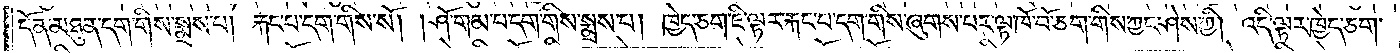དོན་མཐུན་དག་གིས་སྨྲས་པ། རྐང་པ་དག་གིས་སོ། །ཤོ་གམ་པ་དག་གིས་སྨྲས་པ། ཁྱེད་ཅག་ཇི་ལྟར་རྐང་པ་དག་གིས་ཞུགས་པར་ལྟ་ཁོ་བོ་ཅག་གིས་ཀྱང་ཤེས་ཀྱི། འདི་ལྟར་ཁྱེད་ཅག་
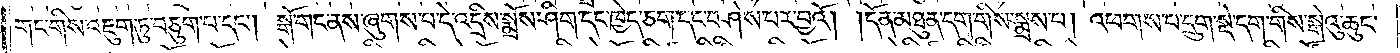གང་གིས་འཇུག་ཏུ་བཅུག་པ་དང༌། སྒོ་གང་ནས་ཞུགས་པ་དེ་འདྲིས་སྨྲོས་ཤིག་དང་ཁྱེད་ཅག་དང་བཤེས་པར་བྱའོ། །དོན་མཐུན་དག་གིས་སྨྲས་པ། འཕགས་པ་དྲུག་སྡེ་དག་གིས་སྒེའུ་ཆུང་
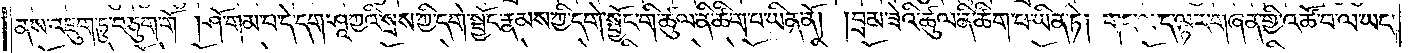ནས་འཇུག་ཏུ་བཅུག་གོ །ཤོ་གམ་པ་དེ་དག་ཤཱཀྱའི་སྲས་ཀྱི་དགེ་སྦྱོང་རྣམས་ཀྱི་དགེ་སྦྱོང་གི་ཚུལ་ནི་ཚིག་པ་ཡིན་ནོ། །བྲམ་ཟེའི་ཚུལ་ནི་ཚིག་པ་ཡིན་ཏེ། གང་ལ་ད་ལྟར་གཞན་གྱི་འཚོ་བ་ལ་ཡང་
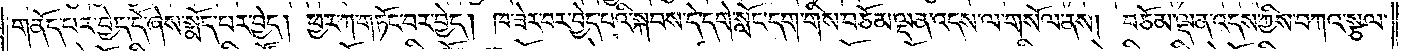གནོད་པར་བྱེད་དོ་ཞེས་སྨོད་པར་བྱེད། ཕྱར་ཀ་གཏོང་བར་བྱེད། ཁ་ཟེར་བར་བྱེད་པའི་སྐབས་དེ་དགེ་སློང་དག་གིས་བཅོམ་ལྡན་འདས་ལ་གསོལ་ནས། བཅོམ་ལྡན་འདས་ཀྱིས་བཀའ་སྩལ་
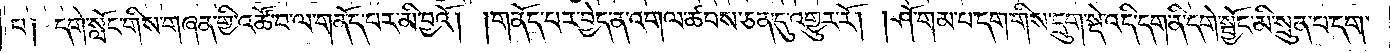པ༑ དགེ་སློང་གིས་གཞན་གྱི་འཚོ་བ་ལ་གནོད་པར་མི་བྱའོ། །གནོད་པར་བྱེད་ན་འགལ་ཚབས་ཅན་དུ་འགྱུར་རོ། །ཤོ་གམ་པ་དག་གིས་དྲུག་སྡེ་འདི་དག་ནི་དགེ་སྦྱོང་མི་སྲུན་པ་དག་
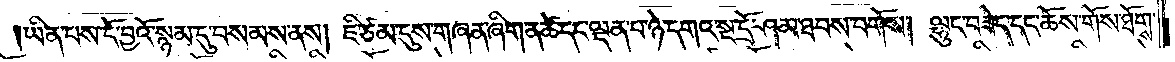།ཡིན་པས་དོ་བྱའོ་སྙམ་དུ་བསམས་ནས། ཇི་ཙམ་དུས་གཞན་ཞིག་ན་ཚེ་དང་ལྡན་པ་ཉེ་དགའ་སྔ་དྲོ་ཤམ་ཐབས་བགོས། ལྷུང་བཟེད་དང་ཆོས་གོས་ཐོགས་
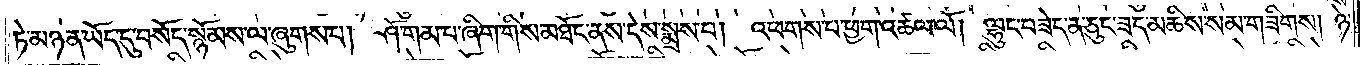ཏེ་མཉན་ཡོད་དུ་བསོད་སྙོམས་ལ་ཞུགས་པ། ཤོ་གམ་པ་ཞིག་གིས་མཐོང་ནས་དེས་སྨྲས་པ། འཕགས་པ་ཕྱག་འཚལ་ལོ། ལྷུང་བཟེད་ན་ཅུང་ཟད་མཆིས་སམ་གཟིགས། ཉེ་
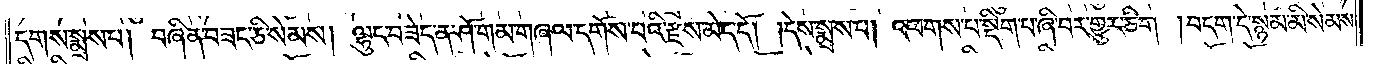དགས་སྨྲས་པ། བཞིན་བཟང་ཅི་སེམས། ལྷུང་བཟེད་ན་ཤོ་གམ་གཞལ་དགོས་པའི་རྫས་མེད་དོ། །དེས་སྨྲས་པ། འཕགས་པ་སྡིག་པ་ཞི་བར་གྱུར་ཅིག །བདག་དེ་སྙམ་མི་སེམས་
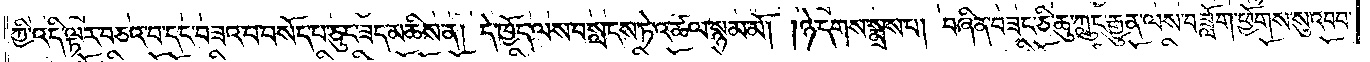ཀྱི་འདི་ལྟར་བཅའ་བ་དང་བཟའ་བ་བསོད་པ་ཅུང་ཟད་མཆིས་ན། དེ་ཁྱོད་ལས་བསླངས་ཏེ་འཚལ་སྙམ་མོ། །ཉེ་དགས་སྨྲས་པ། བཞིན་བཟང་ཅི་ཆུ་ཀླུང་རྒྱུན་ལས་བཟློག་ཕྱོགས་སུ་འབབ་
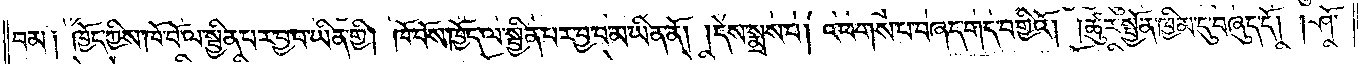བམ༑ ཁྱོད་ཀྱིས་ཁོ་བོ་ལ་སྦྱིན་པར་བྱ་བ་ཡིན་གྱི། ཁོ་བོས་ཁྱོད་ལ་སྦྱིན་པར་བྱ་བ་མ་ཡིན་ནོ། །དེས་སྨྲས་པ། འཕགས་པ་བཞད་གད་བགྱིའོ། །ཚུར་སྤྱོན་ཁྱིམ་དུ་བཞུད་དོ། །ཤོ་
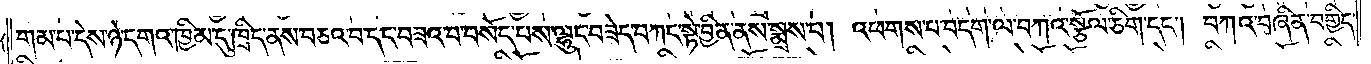གམ་པ་དེས་ཉེ་དགའ་ཁྱིམ་དུ་ཁྲིད་ནས་བཅའ་བ་དང་བཟའ་བ་བསོད་པས་ལྷུང་བཟེད་བཀང་སྟེ་བྱིན་ནས་སྨྲས་པ། འཕགས་པ་བདག་ལ་བཀའ་སྩོལ་ཅིག་དང༌། བཀའ་བཞིན་བགྱིད་
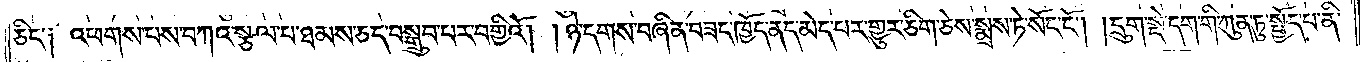ཅིང་༑ འཕགས་པས་བཀའ་སྩལ་པ་ཐམས་ཅད་བསྒྲུབ་པར་བགྱིའོ། ཉེ་དགས་བཞིན་བཟང་ཁྱོད་ནད་མེད་པར་གྱུར་ཅིག་ཅེས་སྨྲས་ཏེ་སོང་ངོ༌། །དྲུག་སྡེ་དག་གི་ཀུན་ཏུ་སྤྱོད་པ་ནི་
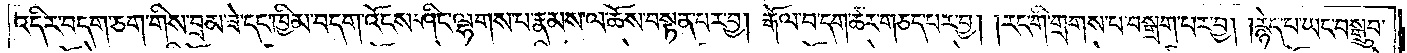འདིར་བདག་ཅག་གིས་བྲམ་ཟེ་དང་ཁྱིམ་བདག་འོངས་ཤིང་ལྷགས་པ་རྣམས་ལ་ཆོས་བསྟན་པར་བྱ། རྒོལ་བ་དག་ཚར་གཅད་པར་བྱ། །རང་གི་གྲགས་པ་བསྒྲག་པར་བྱ། །རྙེད་པ་ཡང་བསྒྲུབ་
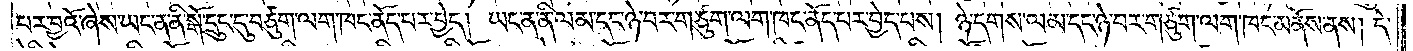པར་བྱའོ་ཞེས་ཡང་ན་ནི་སྒོ་དྲུང་དུ་བཙུག་ལག་ཁང་ནོད་པར་བྱེད། ཡང་ན་ནི་ལམ་དང་ཉེ་བར་གཙུག་ལག་ཁང་ནོད་པར་བྱེད་པས། ཉེ་དགས་ལམ་དང་ཉེ་བར་གཙུག་ལག་ཁང་མནོས་ནས། དེ་
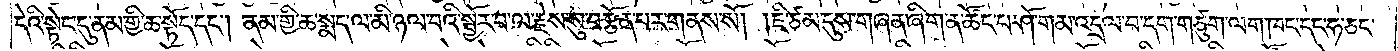དེའི་སྟེང་དུ་ནམ་གྱི་ཆ་སྟོད་དང༌། ནམ་གྱི་ཆ་སྨད་ལ་མི་ཉལ་བའི་སྦྱོར་བ་ལ་རྗེས་སུ་བརྩོན་པར་གནས་སོ། །ཇི་ཙམ་དུས་གཞན་ཞིག་ན་ཚོང་པ་ཤོ་གམ་འདྲལ་བ་དག་གཙུག་ལག་ཁང་དང་ཧ་ཅང་
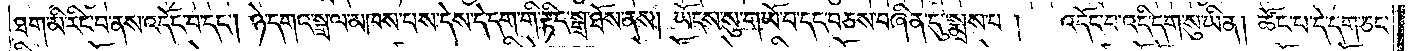ཐག་མི་རིང་བ་ནས་འདོང་བ་དང༌། ཉེ་དགའ་སྒྲ་ལ་མཁས་པས་དེས་དེ་དག་གི་རྟིང་སྒྲ་ཐོས་ནས། ཡོངས་སུ་གཡོ་བ་དང་བཅས་བཞིན་དུ་སྨྲས་པ།  འདོང་བ་འདི་དག་སུ་ཡིན། ཚོང་པ་དེ་དག་ཅང་
